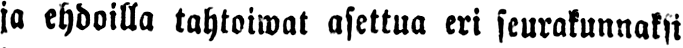ja ehdoilla tahtoiwat asettua eri seurakunnaksi
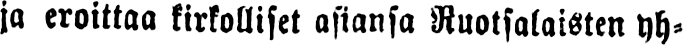ja eroilkaa kirkolliset asiansa Ruotsalaisten yh-
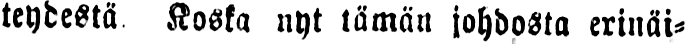teydestä Koska nyt tämän johdosta erinäi-
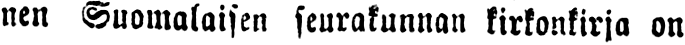nen Suomalaisen seurakunnan kirkonkirja on
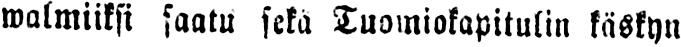walmiiksi saatu sekä Tuomiokapitulin käskyn
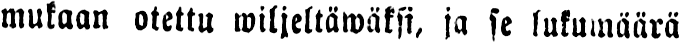mukaan otettu wiljeltäwäksi, ja se lukumäärä
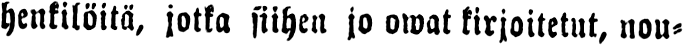henkilöitä, jotka siihen jo owat kirjoitetut, nou-
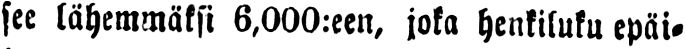see lähemmäksi 6,000:een, joka henkiluku epäi-
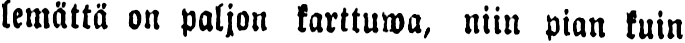lemättä on paljon karttuwa, niin pian kuin
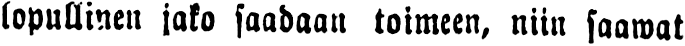lopullinen jako saadaan toimeen, niin saawat
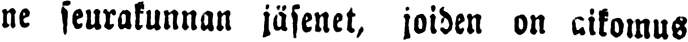ne seurakunnan jäsenet, joiden on aikomus
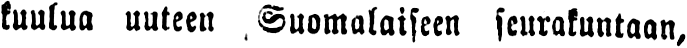kuulua uuteen Suomalaiseen seurakuntaan,
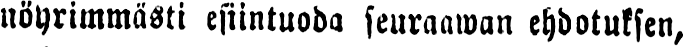nöyrimmästi esiintuoda seuraawan ehdotuksen,
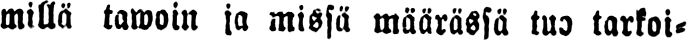millä tawoin ja missä määrässä tuo tarkoi-
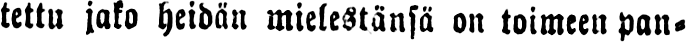tettu jako heidän mielestänsä on toimeen pan-
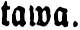tama.
